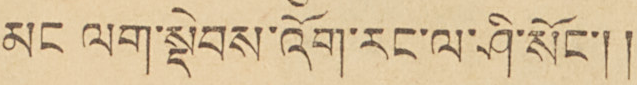མང ལག་སྡེབས་འོག་རང་ལ་ཤི་སོང་།།
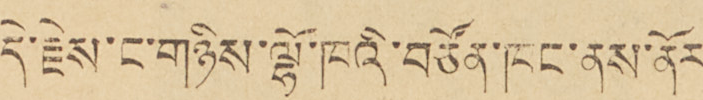དེ་རྗེས་ང་གཉིས་ལྷོ་ཁའི་བཙོན་ཁང་ནས་ནོར་
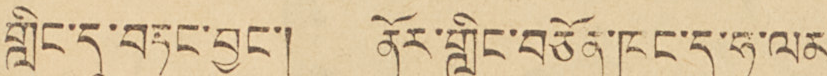གླིང་དུ་བཏང་བྱུང་། ནོར་གླིང་བཙོན་ཁང་དུ་ཧ་ལམ་
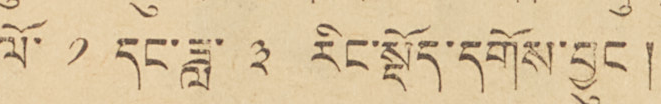ལོ་ ༡ དང་ཟླ་ ༣ རིང་སྡོད་དགོས་བྱུང །།
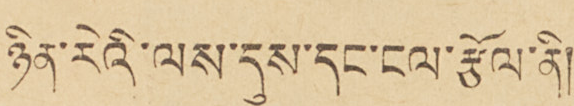ཉིན་རེའི་ལས་དུས་དང་ངལ་ཙོལ་ནི།
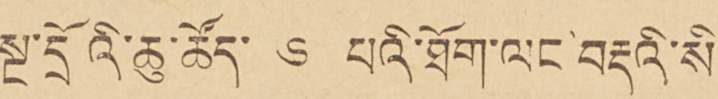སྔ་དྲོའི་ཆུ་ཚོད་ ༦ པའི་ཐོག་ལང་བརྡའི་སི་
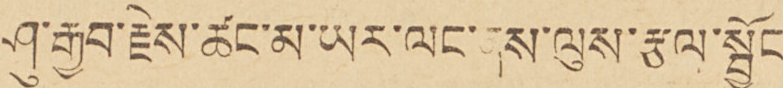ཤུ་རྒྱབ་རྗེས་ཚང་མ་ཡར་ལང་ནས་ལུས་རྩལ་སྦྱོང་
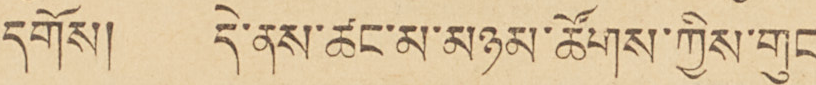དགོས། དེ་ནས་ཚང་མ་མཉམ་ཚོགས་ཀྱིས་གུང་
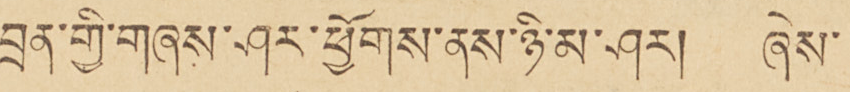བྲན་གྱི་གཞས་ཤར་ཕྱོགས་ནས་ཉི་མ་ཤར། ཞེས་
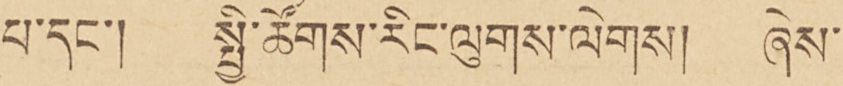པ་དང་། སྤྱི་ཚོགས་རིང་ལུགས་ལེགས། ཞེས་
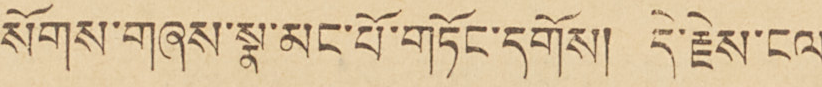སོགས་གཞས་སྣ་མང་པོ་གཏོང་དགོས། དེ་རྗེས་ངལ
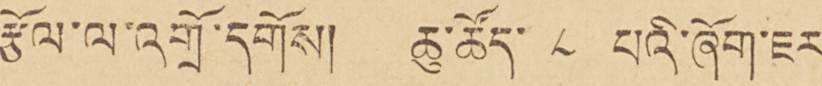རྩོལ་ལ་འགྲོ་དགོས། ཆུ་ཚོད་ ༨ པའི་ཞོག་ཇར་
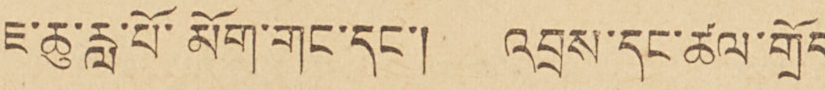ཇ་ཆུ་རླ་པོ་མོག་གང་དང་། འབྲས་དང་ཚལ་གྲོད་
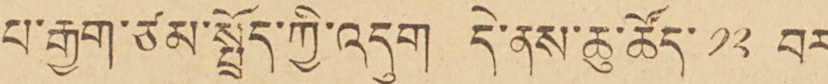པ་རྒྱག་ཙམ་སྤྲོད་ཀྱི་འདུག དེ་ནས་ཆུ་ཚོད་ ༡༢ བར་
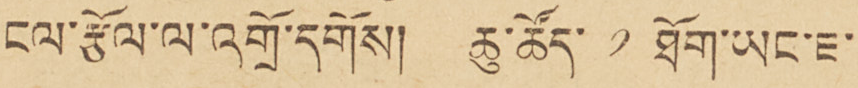ངལ་རྩོལ་ལ་འགྲོ་དགོས། ཆུ་ཚོད་ ༡ ཐོག་ཡང་ཇ་
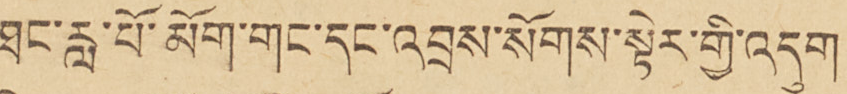ཐང་རླ་པོ་མོག་གང་དང་འབྲས་སོགས་སྟེར་གྱི་འདུག
